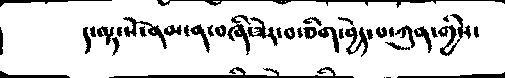།་ལྟ་པོ་ནམ་ན་བཞི་ཟེར་བ་ཅིག་བྱེད་པ་ཀུན་གྱིས་
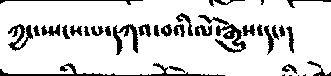ཀྱང་སྤངས་པ་དཀའ་བའི་ལོ་རྒྱུས་དང་།
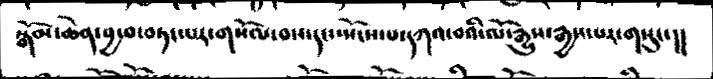སྒོམ་ཆེན་བྱ་བ་བཏག་པར་གསོལ་བས་དང་སྤོངས་པ་དཀའ་བའི་ལོ་རྒྱུས་རྒྱས་པར་གསུང་།།
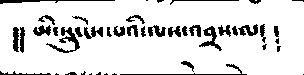།། མི་སླུ་ངེས་པའི་ལས་འབྲས་ལ།།
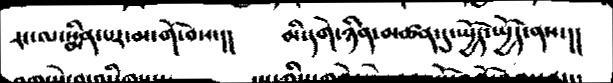རང་ལ་སྨིན་པར་མ་གོ་བས་།།   མི་དགེ་ཉིད་མཚན་དུ་སྤྱོད་སྤྱོད་ནས་།།
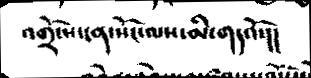འགྲོ་ས་ངན་སོང་ལས་མི་གདའོ་།།
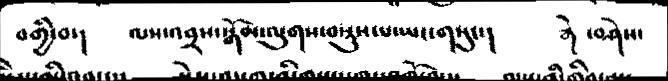བགྱི་བ་།  ལས་འབྲས་སྒོམ་ལུགས་བསྡུས་པ་ཡང་གསུང་།  རྒེ   ་བཤེས་
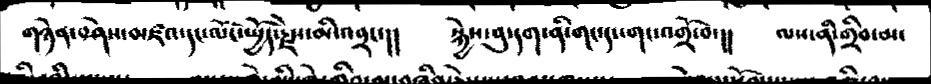གཉེན་བཤེས་མཛའ་དང་ལོང་སྤྱོད་རྗེས་མི་འབྲང་།།  སྐྱེས་བུ་དག་ནི་གང་དང་གང་འགྲོ་བ་།།  ལས་ནི་གྲིབ་མ་
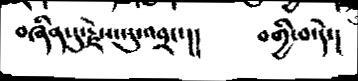བཞིན་དུ་རྗེས་སུ་འབྲང་།།   བགྱི་བ་དེ་།
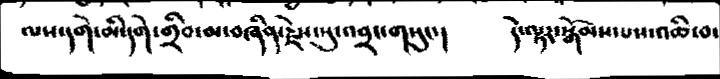ལས་དགེ་མི་དགེ་གྲིབ་མ་བཞིན་རྗེས་སུ་འབྲང་གསུང་།  དེ་ལྟར་སྒོམས་པས་འཆི་བ་
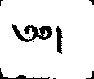༄༅།
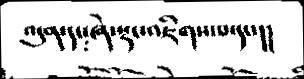འདུན་དང༴ཞེ་སྡང་འཇིགས་པ་དང་།།
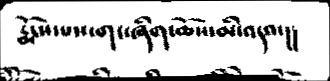རྨོངས་པས་གང་ཞིག་ཆོས་མི་འདའ་།།
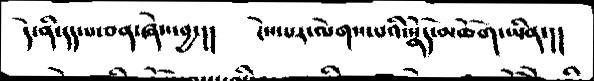དེ་ནི་དད་པ་ཅན་ཞེས་བྱ་།།  ངེས་པར་ལེགས་པའི་སྣོད་མཆོག་ཡིན་།།
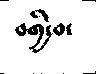བགྱི་བ་
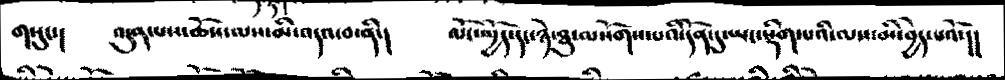གསུང་།  འདུན་པས་ཆོས་ལས་མི་འདའ་བ་ནི་།  ལོང་སྤྱོད་དང་ཉེ་ཐུ་ལསོགས་པའི་དོན་དུ་ཡང་སྡིག་པའི་ལས་མི་བྱེད་པའོ་།།
